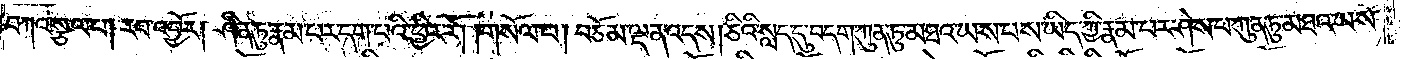བཀའ་སྩལ་པ། རབ་འབྱོར། ཤིན་ཏུ་རྣམ་པར་དག་པའི་ཕྱིར་རོ། །གསོལ་པ། བཅོམ་ལྡན་འདས། ཅིའི་སླད་དུ་བདག་ཀུན་ཏུ་མཐའ་ཡས་པས་ཡིད་ཀྱི་རྣམ་པར་ཤེས་པ་ཀུན་ཏུ་མཐའ་ཡས་
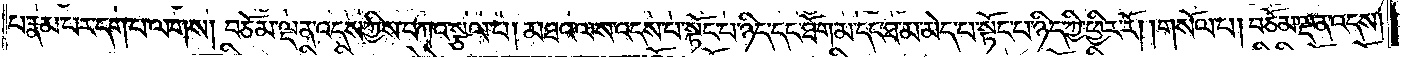པ་རྣམ་པར་དག་པ་ལགས། བཅོམ་ལྡན་འདས་ཀྱིས་བཀའ་སྩལ་པ། མཐའ་ལས་འདས་པ་སྟོང་པ་ཉིད་དང་ཐོག་མ་དང་ཐ་མ་མེད་པ་སྟོང་པ་ཉིད་ཀྱི་ཕྱིར་རོ། །གསོལ་པ། བཅོམ་ལྡན་འདས།
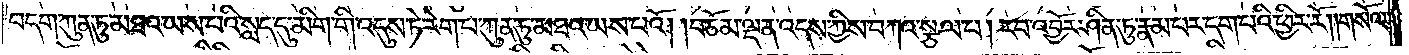བདག་ཀུན་ཏུ་མཐའ་ཡས་པའི་སླད་དུ་མིག་གི་འདུས་ཏེ་རེག་པ་ཀུན་ཏུ་མཐའ་ཡས་པའོ། །བཅོམ་ལྡན་འདས་ཀྱིས་བཀའ་སྩལ་པ། རབ་འབྱོར། ཤིན་ཏུ་རྣམ་པར་དག་པའི་ཕྱིར་རོ། །གསོལ་
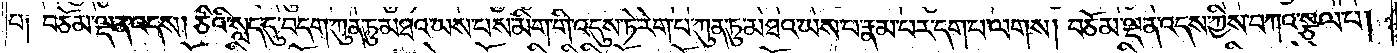པ༑ བཅོམ་ལྡན་འདས། ཅིའི་སླད་དུ་བདག་ཀུན་ཏུ་མཐའ་ཡས་པས་མིག་གི་འདུས་ཏེ་རེག་པ་ཀུན་ཏུ་མཐའ་ཡས་པ་རྣམ་པར་དག་པ་ལགས། བཅོམ་ལྡན་འདས་ཀྱིས་བཀའ་སྩལ་པ།
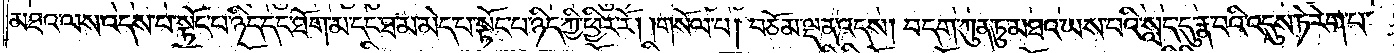མཐའ་ལས་འདས་པ་སྟོང་པ་ཉིད་དང་ཐོག་མ་དང་ཐ་མ་མེད་པ་སྟོང་པ་ཉིད་ཀྱི་ཕྱིར་རོ། །གསོལ་པ། བཅོམ་ལྡན་འདས། བདག་ཀུན་ཏུ་མཐའ་ཡས་པའི་སླད་དུ་རྣ་བའི་འདུས་ཏེ་རེག་པ་
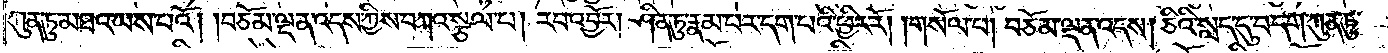ཀུན་ཏུ་མཐའ་ཡས་པའོ། །བཅོམ་ལྡན་འདས་ཀྱིས་བཀའ་སྩལ་པ། རབ་འབྱོར། ཤིན་ཏུ་རྣམ་པར་དག་པའི་ཕྱིར་རོ། །གསོལ་པ། བཅོམ་ལྡན་འདས། ཅིའི་སླད་དུ་བདག་ཀུན་ཏུ་
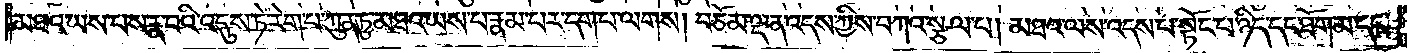མཐའ་ཡས་པས་རྣ་བའི་འདུས་ཏེ་རེག་པ་ཀུན་ཏུ་མཐའ་ཡས་པ་རྣམ་པར་དག་པ་ལགས། བཅོམ་ལྡན་འདས་ཀྱིས་བཀའ་སྩལ་པ། མཐའ་ལས་འདས་པ་སྟོང་པ་ཉིད་དང་ཐོག་མ་དང་
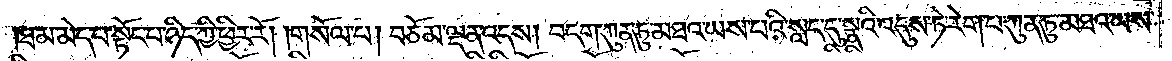ཐ་མ་མེད་པ་སྟོང་པ་ཉིད་ཀྱི་ཕྱིར་རོ། །གསོལ་པ། བཅོམ་ལྡན་འདས། བདག་ཀུན་ཏུ་མཐའ་ཡས་པའི་སླད་དུ་སྣའི་འདུས་ཏེ་རེག་པ་ཀུན་ཏུ་མཐའ་ཡས་
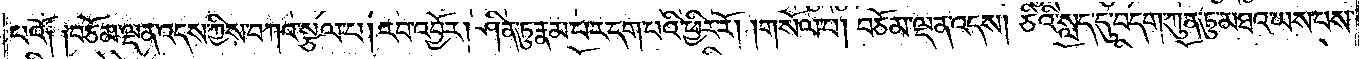པའོ༑ ༑བཅོམ་ལྡན་འདས་ཀྱིས་བཀའ་སྩལ་པ། རབ་འབྱོར། ཤིན་ཏུ་རྣམ་པར་དག་པའི་ཕྱིར་རོ། །གསོལ་པ། བཅོམ་ལྡན་འདས། ཅིའི་སླད་དུ་བདག་ཀུན་ཏུ་མཐའ་ཡས་པས་
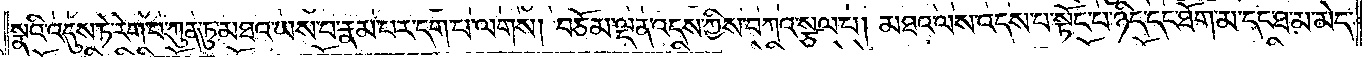སྣའི་འདུས་ཏེ་རེག་པ་ཀུན་ཏུ་མཐའ་ཡས་པ་རྣམ་པར་དག་པ་ལགས། བཅོམ་ལྡན་འདས་ཀྱིས་བཀའ་སྩལ་པ། མཐའ་ལས་འདས་པ་སྟོང་པ་ཉིད་དང་ཐོག་མ་དང་ཐ་མ་མེད་
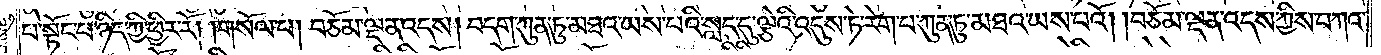པ་སྟོང་པ་ཉིད་ཀྱི་ཕྱིར་རོ། །གསོལ་པ། བཅོམ་ལྡན་འདས། བདག་ཀུན་ཏུ་མཐའ་ཡས་པའི་སླད་དུ་ལྕེའི་འདུས་ཏེ་རེག་པ་ཀུན་ཏུ་མཐའ་ཡས་པའོ། །བཅོམ་ལྡན་འདས་ཀྱིས་བཀའ་
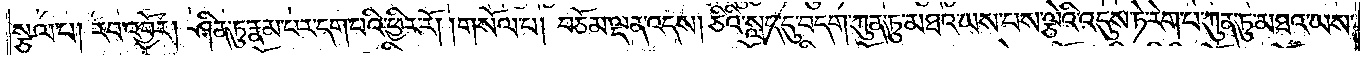སྩལ་པ། རབ་འབྱོར། ཤིན་ཏུ་རྣམ་པར་དག་པའི་ཕྱིར་རོ། །གསོལ་པ། བཅོམ་ལྡན་འདས། ཅིའི་སླད་དུ་བདག་ཀུན་ཏུ་མཐའ་ཡས་པས་ལྕེའི་འདུས་ཏེ་རེག་པ་ཀུན་ཏུ་མཐའ་ཡས་
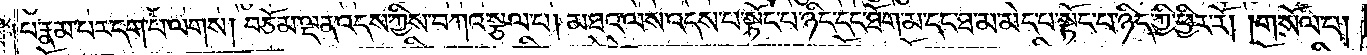པ་རྣམ་པར་དག་པ་ལགས། བཅོམ་ལྡན་འདས་ཀྱིས་བཀའ་སྩལ་པ། མཐའ་ལས་འདས་པ་སྟོང་པ་ཉིད་དང་ཐོག་མ་དང་ཐ་མ་མེད་པ་སྟོང་པ་ཉིད་ཀྱི་ཕྱིར་རོ། །གསོལ་པ།
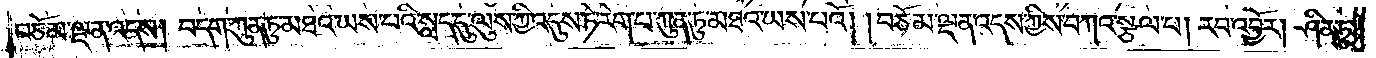བཅོམ་ལྡན་འདས། བདག་ཀུན་ཏུ་མཐའ་ཡས་པའི་སླད་དུ་ལུས་ཀྱི་འདུས་ཏེ་རེག་པ་ཀུན་ཏུ་མཐའ་ཡས་པའོ། །བཅོམ་ལྡན་འདས་ཀྱིས་བཀའ་སྩལ་པ། རབ་འབྱོར། ཤིན་ཏུ་
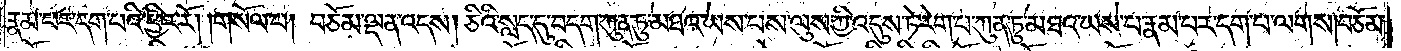རྣམ་པར་དག་པའི་ཕྱིར་རོ། །གསོལ་པ། བཅོམ་ལྡན་འདས། ཅིའི་སླད་དུ་བདག་ཀུན་ཏུ་མཐའ་ཡས་པས་ལུས་ཀྱི་འདུས་ཏེ་རེག་པ་ཀུན་ཏུ་མཐའ་ཡས་པ་རྣམ་པར་དག་པ་ལགས། བཅོམ་
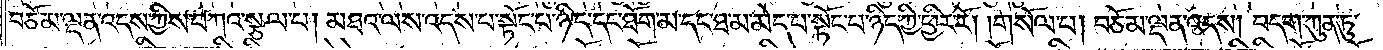ལྡན་འདས་ཀྱིས་བཀའ་སྩལ་པ། མཐའ་ལས་འདས་པ་སྟོང་པ་ཉིད་དང་ཐོག་མ་དང་ཐ་མ་མེད་པ་སྟོང་པ་ཉིད་ཀྱི་ཕྱིར་རོ། །གསོལ་པ། བཅོམ་ལྡན་འདས། བདག་ཀུན་ཏུ་
